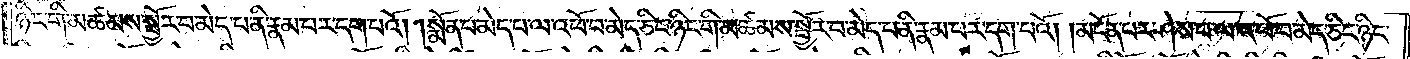ཉིང་གི་མཚམས་སྦྱོར་བ་མེད་པ་ནི་རྣམ་པར་དག་པའོ། །སྨོན་པ་མེད་པ་ལ་འཕོ་བ་མེད་ཅིང་ཉིང་གི་མཚམས་སྦྱོར་བ་མེད་པ་ནི་རྣམ་པར་དག་པའོ། །མངོན་པར་ཤེས་པ་ལ་འཕོ་བ་མེད་ཅིང་ཉིང་
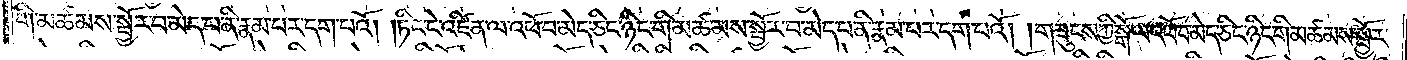གི་མཚམས་སྦྱོར་བ་མེད་པ་ནི་རྣམ་པར་དག་པའོ། །ཏིང་ངེ་འཛིན་ལ་འཕོ་བ་མེད་ཅིང་ཉིང་གི་མཚམས་སྦྱོར་བ་མེད་པ་ནི་རྣམ་པར་དག་པའོ། །གཟུངས་ཀྱི་སྒོ་ལ་འཕོ་བ་མེད་ཅིང་ཉིང་གི་མཚམས་སྦྱོར་
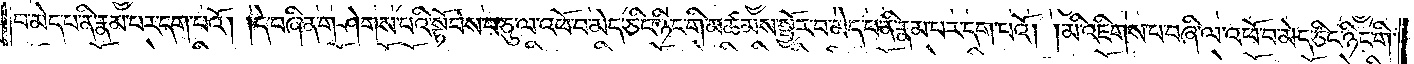བ་མེད་པ་ནི་རྣམ་པར་དག་པའོ། །དེ་བཞིན་གཤེགས་པའི་སྟོབས་བཅུ་ལ་འཕོ་བ་མེད་ཅིང་ཉིང་གི་མཚམས་སྦྱོར་བ་མེད་པ་ནི་རྣམ་པར་དག་པའོ། །མི་འཇིགས་པ་བཞི་ལ་འཕོ་བ་མེད་ཅིང་ཉིང་གི་
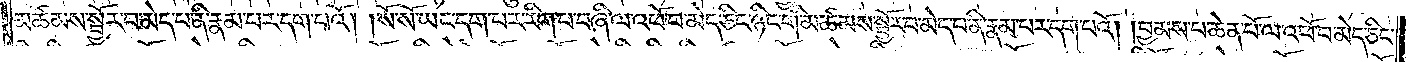མཚམས་སྦྱོར་བ་མེད་པ་ནི་རྣམ་པར་དག་པའོ། །སོ་སོ་ཡང་དག་པར་རིག་པ་བཞི་ལ་འཕོ་བ་མེད་ཅིང་ཉིང་གི་མཚམས་སྦྱོར་བ་མེད་པ་ནི་རྣམ་པར་དག་པའོ། །བྱམས་པ་ཆེན་པོ་ལ་འཕོ་བ་མེད་ཅིང་
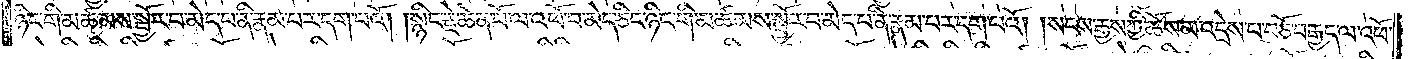ཉིང་གི་མཚམས་སྦྱོར་བ་མེད་པ་ནི་རྣམ་པར་དག་པའོ། །སྙིང་རྗེ་ཆེན་པོ་ལ་འཕོ་བ་མེད་ཅིང་ཉིང་གི་མཚམས་སྦྱོར་བ་མེད་པ་ནི་རྣམ་པར་དག་པའོ། །སངས་རྒྱས་ཀྱི་ཆོས་མ་འདྲེས་པ་བཅོ་བརྒྱད་ལ་འཕོ་
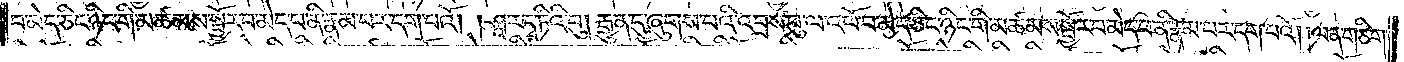བ་མེད་ཅིང་ཉིང་གི་མཚམས་སྦྱོར་བ་མེད་པ་ནི་རྣམ་པར་དག་པའོ། །ཤཱ་རདྭ་ཏིའི་བུ། རྒྱུན་དུ་ཞུགས་པའི་འབྲས་བུ་ལ་འཕོ་བ་མེད་ཅིང་ཉིང་གི་མཚམས་སྦྱོར་བ་མེད་པ་ནི་རྣམ་པར་དག་པའོ། །ལན་གཅིག་
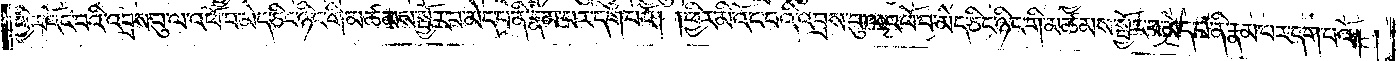ཕྱིར་འོང་བའི་འབྲས་བུ་ལ་འཕོ་བ་མེད་ཅིང་ཉིང་གི་མཚམས་སྦྱོར་བ་མེད་པ་ནི་རྣམ་པར་དག་པའོ། །ཕྱིར་མི་འོང་བའི་འབྲས་བུ་ལ་འཕོ་བ་མེད་ཅིང་ཉིང་གི་མཚམས་སྦྱོར་བ་མེད་པ་ནི་རྣམ་པར་དག་པའོ། །
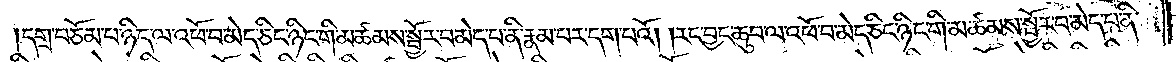དགྲ་བཅོམ་པ་ཉིད་ལ་འཕོ་བ་མེད་ཅིང་ཉིང་གི་མཚམས་སྦྱོར་བ་མེད་པ་ནི་རྣམ་པར་དག་པའོ། །རང་བྱང་ཆུབ་ལ་འཕོ་བ་མེད་ཅིང་ཉིང་གི་མཚམས་སྦྱོར་བ་མེད་པ་ནི་
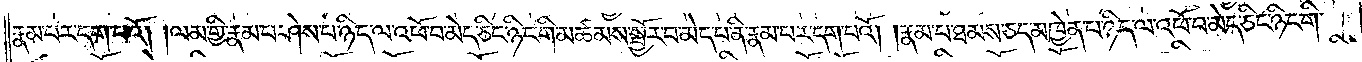རྣམ་པར་དག་པའོ། །ལམ་གྱི་རྣམ་པ་ཤེས་པ་ཉིད་ལ་འཕོ་བ་མེད་ཅིང་ཉིང་གི་མཚམས་སྦྱོར་བ་མེད་པ་ནི་རྣམ་པར་དག་པའོ། །རྣམ་པ་ཐམས་ཅད་མཁྱེན་པ་ཉིད་ལ་འཕོ་བ་མེད་ཅིང་ཉིང་གི་
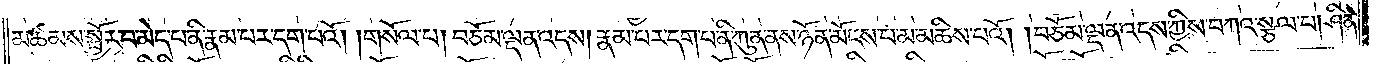མཚམས་སྦྱོར་བ་མེད་པ་ནི་རྣམ་པར་དག་པའོ། །གསོལ་པ། བཅོམ་ལྡན་འདས། རྣམ་པར་དག་པ་ནི་ཀུན་ནས་ཉོན་མོངས་པ་མ་མཆིས་པའོ། །བཅོམ་ལྡན་འདས་ཀྱིས་བཀའ་སྩལ་པ། ཤིན་
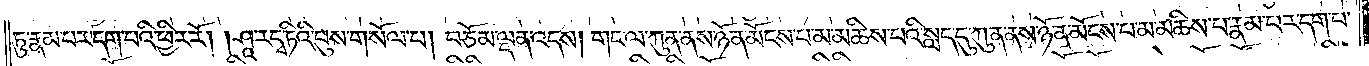ཏུ་རྣམ་པར་དག་པའི་ཕྱིར་རོ། །ཤཱ་ར་དྭ་ཏིའི་བུས་གསོལ་པ། བཅོམ་ལྡན་འདས། གང་ལ་ཀུན་ནས་ཉོན་མོངས་པ་མ་མཆིས་པའི་སླད་དུ་ཀུན་ནས་ཉོན་མོངས་པ་མ་མཆིས་པ་རྣམ་པར་དག་པ་
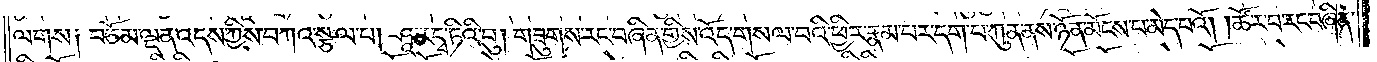ལགས༑ བཅོམ་ལྡན་འདས་ཀྱིས་བཀའ་སྩལ་པ། ཤཱ་ར་དྭ་ཏིའི་བུ། གཟུགས་རང་བཞིན་གྱིས་འོད་གསལ་བའི་ཕྱིར་རྣམ་པར་དག་པ་ཀུན་ནས་ཉོན་མོངས་པ་མེད་པའོ། །ཚོར་བ་རང་བཞིན་
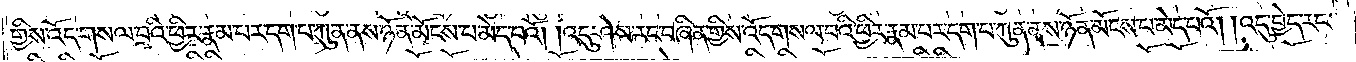གྱིས་འོད་གསལ་བའི་ཕྱིར་རྣམ་པར་དག་པ་ཀུན་ནས་ཉོན་མོངས་པ་མེད་པའོ། །འདུ་ཤེས་རང་བཞིན་གྱིས་འོད་གསལ་བའི་ཕྱིར་རྣམ་པར་དག་པ་ཀུན་ནས་ཉོན་མོངས་པ་མེད་པའོ། །འདུ་བྱེད་རང་
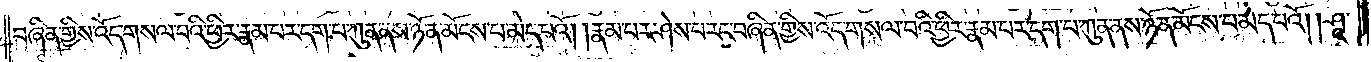བཞིན་གྱིས་འོད་གསལ་བའི་ཕྱིར་རྣམ་པར་དག་པ་ཀུན་ནས་ཉོན་མོངས་པ་མེད་པའོ། །རྣམ་པར་ཤེས་པ་རང་བཞིན་གྱིས་འོད་གསལ་བའི་ཕྱིར་རྣམ་པར་དག་པ་ཀུན་ནས་ཉོན་མོངས་པ་མེད་པའོ། །ཤཱ་
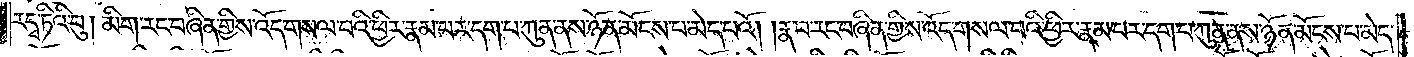ར་དྭ་ཏིའི་བུ། མིག་རང་བཞིན་གྱིས་འོད་གསལ་བའི་ཕྱིར་རྣམ་པར་དག་པ་ཀུན་ནས་ཉོན་མོངས་པ་མེད་པའོ། །རྣ་བ་རང་བཞིན་གྱིས་འོད་གསལ་བའི་ཕྱིར་རྣམ་པར་དག་པ་ཀུན་ནས་ཉོན་མོངས་པ་མེད་
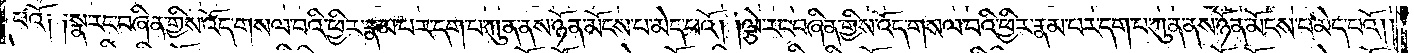པའོ༑ ༑སྣ་རང་བཞིན་གྱིས་འོད་གསལ་བའི་ཕྱིར་རྣམ་པར་དག་པ་ཀུན་ནས་ཉོན་མོངས་པ་མེད་པའོ། །ལྕེ་རང་བཞིན་གྱིས་འོད་གསལ་བའི་ཕྱིར་རྣམ་པར་དག་པ་ཀུན་ནས་ཉོན་མོངས་པ་མེད་པའོ། །
